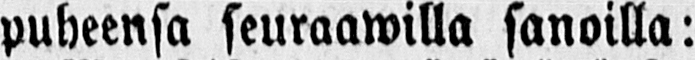puheensa seuraawilla sanoilla:
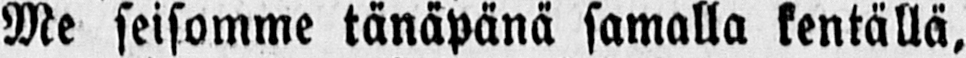Me seisomme tänäpänä samalla kentällä,
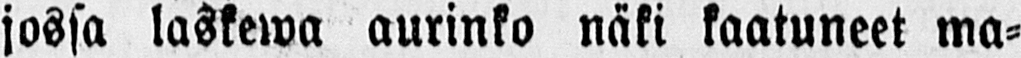jossa laskewa aurinko näki kaatuneet ma-
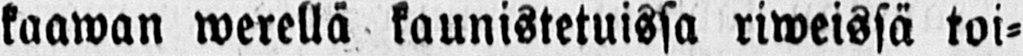kaawan werellä kaunistetuissa riweissä toi-
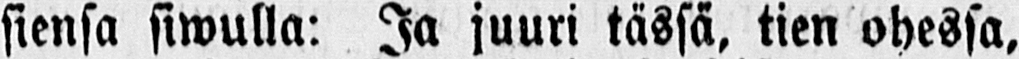stensa siwulla: Ja juuri tässä, tien ohessa,
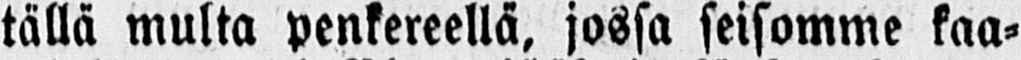tällä multa penkereellä, jossa seisomme kaa-
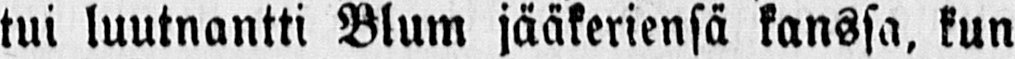tui luutnantti Blum jääkeriensä kanssa, kun
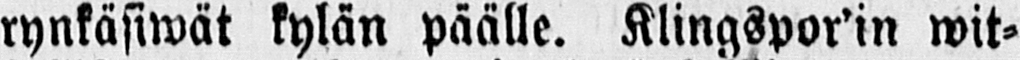rynkäsiwät kylän päälle. Klingspor'in wit-
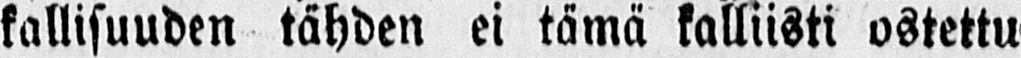kallisuuden tähden ei tämä kalliisti ostettu
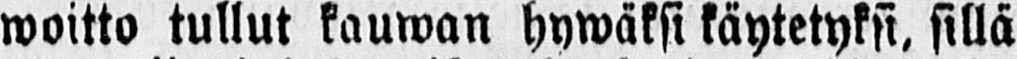woitto tullut kauwan hywäksi käytetyksi, sillä
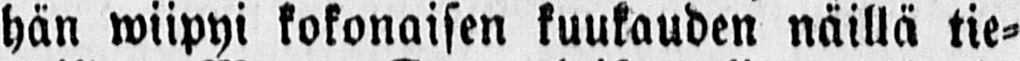hän wiipyi kokonaisen kuukauden näillä tie-
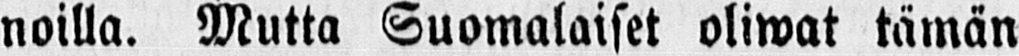noilla. Mutta Suomalaiset oliwat tämän
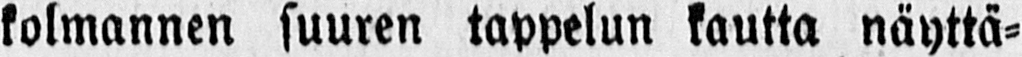kolmannen suuren tappelun kautta näyttä-
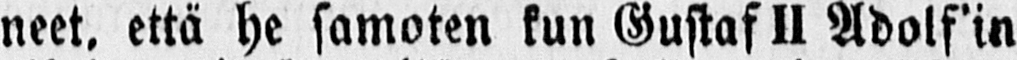neet, että he samoten kun Gustaf II Adolf'in
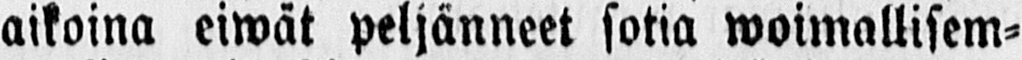aikoina eiwät peljänneet sotia woimallisem-
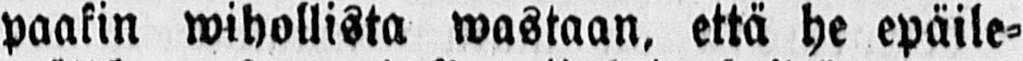paakin wihollista wastaan, että he epäile-
